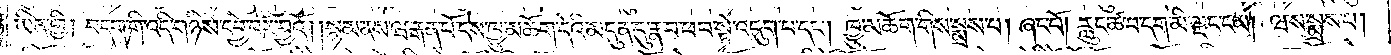ཡིན་གྱི། བདག་གི་འདི་གཉིས་དབྱེ་བར་བྱའོ། །སྙམ་ནས་ཝ་རྒན་པོ་དེས་ཁྱུ་མཆོག་དེའི་མདུན་དུ་རྣ་བ་ཕབ་སྟེ་འདུག་པ་དང༌། ཁྱུ་མཆོག་གིས་སྨྲས་པ། ཞང་པོ། རླུང་ཚ་བ་དག་མི་ལྡང་ངམ། ཝས་སྨྲས་པ།
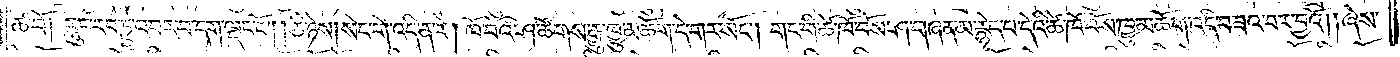ཚ་བོ། རླུང་རབ་ཏུ་འབར་བ་དག་ལྡང་ངོ༌། །ཅི་ཉེས། སེང་གེ་འདི་ན་རེ། ཁོ་བོའི་ཤ་ཚོགས་རྒྱུ་ཁྱུ་མཆོག་དེ་གར་སོང༌། གང་གི་ཚེ་ཁོ་བོས་ཤ་གཞན་མ་རྙེད་པ་དེའི་ཚེ་ཁོ་བོས་ཁྱུ་མཆོག་འདི་བཟའ་བར་བྱའོ། །ཞེས་
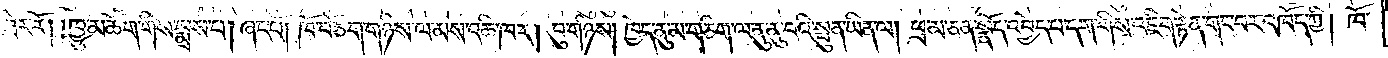ཟེར་རོ། །ཁྱུ་མཆོག་གིས་སྨྲས་པ། ཞང་པོ། ཁོ་བོ་ཅག་གཉིས་ལ་མས་འཆི་ཁར། བུ་གཉིས། ཁྱེད་ནུ་མ་གཅིག་ལ་ནུ་ནུ་བའི་སྤུན་ཡིན་ལ། ཕྲ་མ་ཅན་སྣོད་འབྱེད་པ་དག་གིས་འཇིག་རྟེན་གང་བར་འཁོད་ཀྱི། ཁོ་
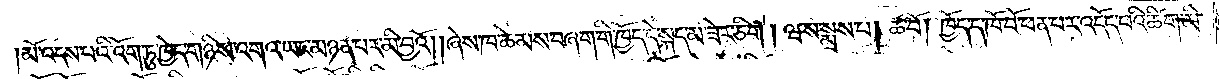མོ་འདས་པའི་འོག་ཏུ་ཁྱེད་གཉིས་འགའ་ཡང་མཉན་པར་མི་བྱའོ། །ཞེས་ཁ་ཆེམས་བཞག་གི་ཁྱོད་དེ་སྐད་མ་ཟེར་ཅིག །ཝས་སྨྲས་པ། ཚ་བོ། ཁྱོད་ད་ཁོ་བོ་ཕན་པར་འདོད་པའི་ཚིག་མི་
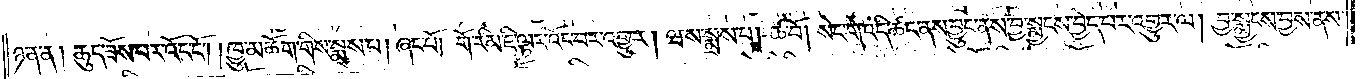ཉན་ན། ཆུད་ཟོས་པར་འོང་ངོ༌། །ཁྱུ་མཆོག་གིས་སྨྲས་པ། ཞང་པོ། གོ་རིམ་ཇི་ལྟར་འོང་བར་འགྱུར། ཝས་སྨྲས་པ། ཚ་བོ། སེང་གེ་འདི་ཚང་ནས་བྱུང་ནས་བྱ་སྨྱངས་བྱེད་པར་འགྱུར་ལ། བྱ་སྨྱངས་བྱས་ནས་
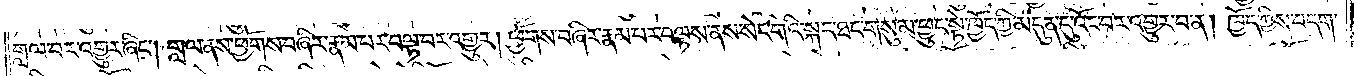གླལ་བར་འགྱུར་ཞིང༌། གླལ་ནས་ཕྱོགས་བཞིར་རྣམ་པར་བལྟ་བར་འགྱུར། ཕྱོགས་བཞིར་རྣམ་པར་བལྟས་ནས་སེང་གེའི་སྐད་ཐང་གསུམ་ཕྱུང་སྟེ་ཁྱོད་ཀྱི་མདུན་དུ་འོང་བར་འགྱུར་བ་ན། ཁྱོད་ཀྱིས་བདག་
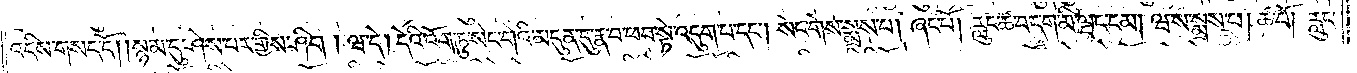འདིས་གསད་དོ། །སྙམ་དུ་ཤེས་པར་གྱིས་ཤིག །ཝ་དེ། དེའི་འོག་ཏུ་སེང་གེའི་མདུན་དུ་རྣ་བ་ཕབ་སྟེ་འདུག་པ་དང༌། སེང་གེས་སྨྲས་པ། ཞང་པོ། རླུང་ཚ་བ་དག་མི་ལྡང་ངམ། ཝས་སྨྲས་པ། ཚ་བོ། རླུང་
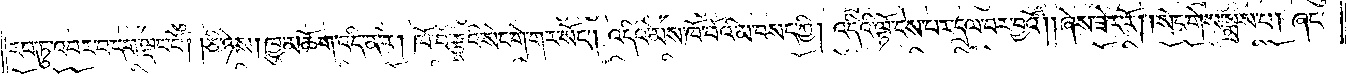རབ་ཏུ་འབར་བ་དག་ལྡང་ངོ༌། །ཅི་ཉེས། ཁྱུ་མཆོག་འདི་ན་རེ། ཁོ་བོ་རྩྭའི་སེང་གེ་གར་སོང༌། འདིའི་མས་ཁོ་བོའི་མ་བསད་ཀྱི། འདིའི་ལྟོ་ངེས་པར་དྲལ་བར་བྱའོ། །ཞེས་ཟེར་རོ། །སེང་གེས་སྨྲས་པ། ཞང་
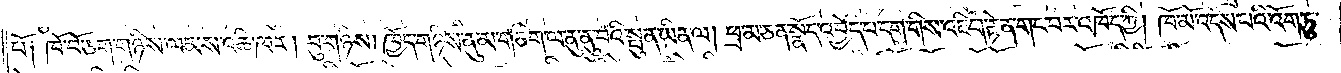པོ༑ ཁོ་བོ་ཅག་གཉིས་ལ་མས་འཆི་ཁར། བུ་གཉིས། ཁྱོད་གཉིས་ནུ་མ་གཅིག་ལ་ནུ་ནུ་བའི་སྤུན་ཡིན་ལ། ཕྲ་མ་ཅན་སྣོད་འབྱེད་པ་དག་གིས་འཇིག་རྟེན་གང་བར་འཁོད་ཀྱི། ཁོ་མོ་འདས་པའི་འོག་ཏུ་
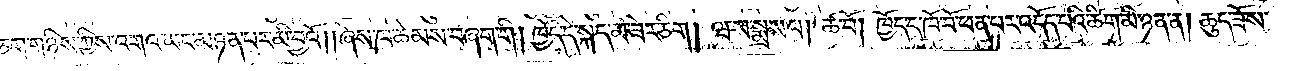ཁྱེད་ཅག་གཉིས་ཀྱིས་འགའ་ཡང་མཉན་པར་མི་བྱའོ། །ཞེས་ཁ་ཆེམས་བཞག་གི། ཁྱོད་དེ་སྐད་མ་ཟེར་ཅིག །ཝས་སྨྲས་པ། ཚ་བོ། ཁྱོད་ད་ཁོ་བོ་ཕན་པར་འདོད་པའི་ཚིག་མི་ཉན་ན། ཆུད་ཟོས་
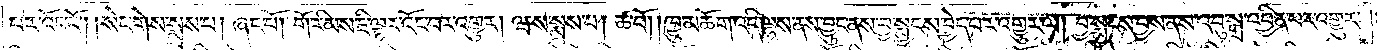པར་འོང་ངོ༌། །སེང་གེས་སྨྲས་པ། ཞང་པོ། གོ་རིམས་ཇི་ལྟར་འོང་བར་འགྱུར། ཝས་སྨྲས་པ། ཚ་བོ། ཁྱུ་མཆོག་འདི་ལྷས་ནས་བྱུང་ནས་བྱ་སྨྱངས་བྱེད་པར་འགྱུར་ལ། བྱ་སྨྱངས་བྱས་ནས་འབུ་སྒྲ་འབྱིན་པར་འགྱུར་
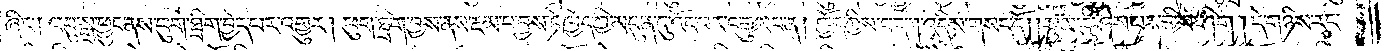ཞིང༌། འབུ་སྒྲ་ཕྱུང་ནས་ཕུག་ཐྲིག་བྱེད་པར་འགྱུར། ཕུག་ཐྲིག་བྱས་ནས་རྔམ་པ་བྱས་ཏེ་ཁྱོད་ཀྱི་མདུན་དུ་འོང་བར་འགྱུར་པ་ན། ཁྱོད་ཀྱིས་བདག་འདིས་གསད་དོ། །སྙམ་དུ་ཤེས་པར་གྱིས་ཤིག །དེ་གཉིས་རང་
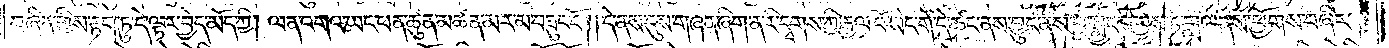བཞིན་གྱིས་རྟག་ཏུ་དེ་ལྟར་བྱེད་མོད་ཀྱི། ལན་འགའ་ཡང་ཕན་ཚུན་མཚན་མར་མ་བཟུང་ངོ༌། །དེ་ནས་དུས་གཞན་ཞིག་ན་རི་དྭགས་ཀྱི་རྒྱལ་པོ་སེང་གེ་དེ་ཚང་ནས་བྱུང་ནས་བྱ་སྨྱངས་བྱས་ཏེ་གླལ་ནས་ཕྱོགས་བཞིར་
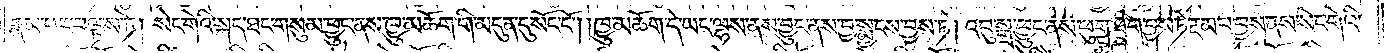རྣམ་པར་བལྟས་ཏེ། སེང་གེའི་སྐད་ཐང་གསུམ་ཕྱུང་ནས་ཁྱུ་མཆོག་གི་མདུན་དུ་སོང་ངོ༌། །ཁྱུ་མཆོག་དེ་ཡང་ལྷས་ནས་བྱུང་ནས་བྱ་སྨྱངས་བྱས་ཏེ། འབུ་སྒྲ་ཕྱུང་ནས་ཕུག་ཐྲིག་བྱས་ཏེ་རྔམ་པ་བྱས་ནས་སེང་གེའི་
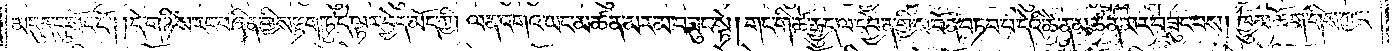མདུན་དུ་སོང་ངོ༌། །དེ་གཉིས་རང་བཞིན་གྱིས་རྟག་ཏུ་དེ་ལྟར་བྱེད་མོད་ཀྱི། ལན་འགའ་ཡང་མཚན་མར་མ་བཟུང་སྟེ། གང་གི་ཚེ་རྒྱུད་ལ་དབྱེན་གྱི་ས་བོན་བཏབ་པ་དེའི་ཚེ་ན་མཚན་མར་བཟུང་བས། ཁྱུ་མཆོག་གིས་ཀྱང་
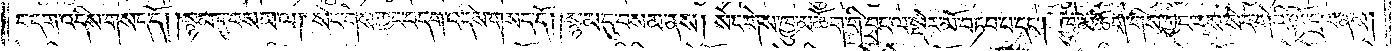བདག་འདིས་གསད་དོ། །སྙམ་དུ་བསམ་ལ། སེང་གེས་ཀྱང་བདག་འདིས་གསད་དོ། །སྙམ་དུ་བསམ་ནས། སེང་གེས་ཁྱུ་མཆོག་གི་བྲང་ལ་སྡེར་མོ་བཏབ་པ་དང༌། ཁྱུ་མཆོག་གིས་ཀྱང་རྭས་སེང་གེའི་ལྟོ་དྲལ་ནས།
